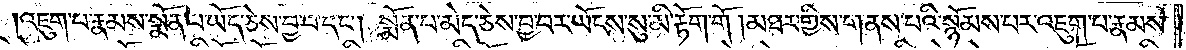འཇུག་པ་རྣམས་སྨོན་པ་ཡོད་ཅེས་བྱ་བ་དང༌། སྨོན་པ་མེད་ཅེས་བྱ་བར་ཡོངས་སུ་མི་རྟོག་གོ །མཐར་གྱིས་གནས་པའི་སྙོམས་པར་འཇུག་པ་རྣམས་
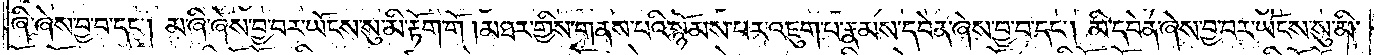ཞི་ཞེས་བྱ་བ་དང༌། མ་ཞི་ཞེས་བྱ་བར་ཡོངས་སུ་མི་རྟོག་གོ །མཐར་གྱིས་གནས་པའི་སྙོམས་པར་འཇུག་པ་རྣམས་དབེན་ཞེས་བྱ་བ་དང༌། མི་དབེན་ཞེས་བྱ་བར་ཡོངས་སུ་མི་
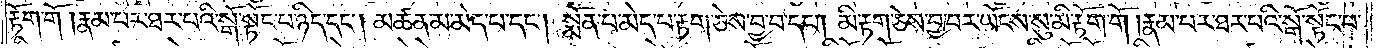རྟོག་གོ །རྣམ་པར་ཐར་པའི་སྒོ་སྟོང་པ་ཉིད་དང༌། མཚན་མ་མེད་པ་དང༌། སྨོན་པ་མེད་པ་རྟག་ཅེས་བྱ་བ་དང༌། མི་རྟག་ཅེས་བྱ་བར་ཡོངས་སུ་མི་རྟོག་གོ །རྣམ་པར་ཐར་པའི་སྒོ་སྟོང་པ་
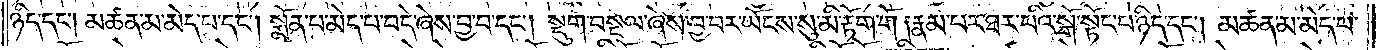ཉིད་དང༌། མཚན་མ་མེད་པ་དང༌། སྨོན་པ་མེད་པ་བདེ་ཞེས་བྱ་བ་དང༌། སྡུག་བསྔལ་ཞེས་བྱ་བར་ཡོངས་སུ་མི་རྟོག་གོ །རྣམ་པར་ཐར་པའི་སྒོ་སྟོང་པ་ཉིད་དང༌། མཚན་མ་མེད་པ་
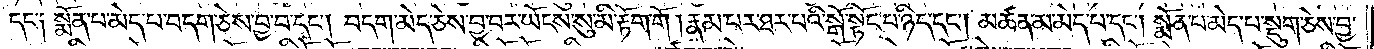དང༌། སྨོན་པ་མེད་པ་བདག་ཅེས་བྱ་བ་དང༌། བདག་མེད་ཅེས་བྱ་བར་ཡོངས་སུ་མི་རྟོག་གོ །རྣམ་པར་ཐར་པའི་སྒོ་སྟོང་པ་ཉིད་དང༌། མཚན་མ་མེད་པ་དང༌། སྨོན་པ་མེད་པ་སྡུག་ཅེས་བྱ་
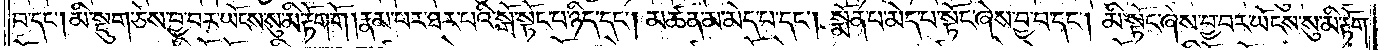བ་དང༌། མི་སྡུག་ཅེས་བྱ་བར་ཡོངས་སུ་མི་རྟོག་གོ །རྣམ་པར་ཐར་པའི་སྒོ་སྟོང་པ་ཉིད་དང༌། མཚན་མ་མེད་པ་དང༌། སྨོན་པ་མེད་པ་སྟོང་ཞེས་བྱ་བ་དང༌། མི་སྟོང་ཞེས་བྱ་བར་ཡོངས་སུ་མི་རྟོག་
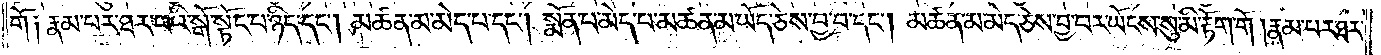གོ །རྣམ་པར་ཐར་པའི་སྒོ་སྟོང་པ་ཉིད་དང༌། མཚན་མ་མེད་པ་དང༌། སྨོན་པ་མེད་པ་མཚན་མ་ཡོད་ཅེས་བྱ་བ་དང༌། མཚན་མ་མེད་ཅེས་བྱ་བར་ཡོངས་སུ་མི་རྟོག་གོ །རྣམ་པར་ཐར་
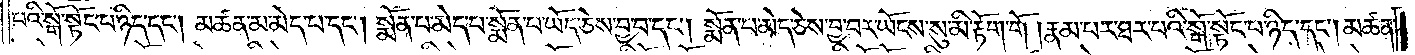པའི་སྒོ་སྟོང་པ་ཉིད་དང༌། མཚན་མ་མེད་པ་དང༌། སྨོན་པ་མེད་པ་སྨོན་པ་ཡོད་ཅེས་བྱ་བ་དང༌། སྨོན་པ་མེད་ཅེས་བྱ་བར་ཡོངས་སུ་མི་རྟོག་གོ །རྣམ་པར་ཐར་པའི་སྒོ་སྟོང་པ་ཉིད་དང༌། མཚན་
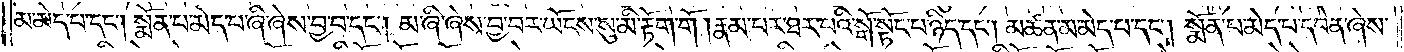མ་མེད་པ་དང༌། སྨོན་པ་མེད་པ་ཞི་ཞེས་བྱ་བ་དང༌། མ་ཞི་ཞེས་བྱ་བར་ཡོངས་སུ་མི་རྟོག་གོ །རྣམ་པར་ཐར་པའི་སྒོ་སྟོང་པ་ཉིད་དང༌། མཚན་མ་མེད་པ་དང༌། སྨོན་པ་མེད་པ་དབེན་ཞེས་
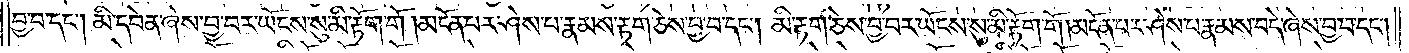བྱ་བ་དང༌། མི་དབེན་ཞེས་བྱ་བར་ཡོངས་སུ་མི་རྟོག་གོ །མངོན་པར་ཤེས་པ་རྣམས་རྟག་ཅེས་བྱ་བ་དང༌། མི་རྟག་ཅེས་བྱ་བར་ཡོངས་སུ་མི་རྟོག་གོ །མངོན་པར་ཤེས་པ་རྣམས་བདེ་ཞེས་བྱ་བ་དང༌།
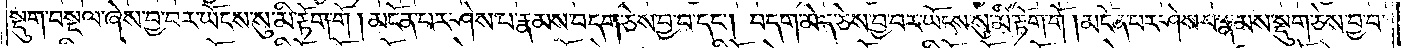སྡུག་བསྔལ་ཞེས་བྱ་བར་ཡོངས་སུ་མི་རྟོག་གོ །མངོན་པར་ཤེས་པ་རྣམས་བདག་ཅེས་བྱ་བ་དང༌། བདག་མེད་ཅེས་བྱ་བར་ཡོངས་སུ་མི་རྟོག་གོ །མངོན་པར་ཤེས་པ་རྣམས་སྡུག་ཅེས་བྱ་བ་
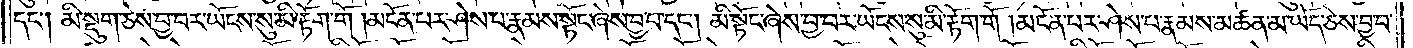དང༌། མི་སྡུག་ཅེས་བྱ་བར་ཡོངས་སུ་མི་རྟོག་གོ །མངོན་པར་ཤེས་པ་རྣམས་སྟོང་ཞེས་བྱ་བ་དང༌། མི་སྟོང་ཞེས་བྱ་བར་ཡོངས་སུ་མི་རྟོག་གོ །མངོན་པར་ཤེས་པ་རྣམས་མཚན་མ་ཡོད་ཅེས་བྱ་བ་
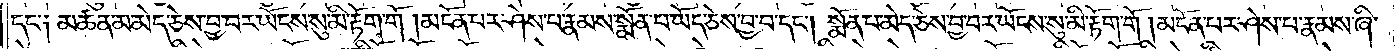དང༌༑ མཚན་མ་མེད་ཅེས་བྱ་བར་ཡོངས་སུ་མི་རྟོག་གོ །མངོན་པར་ཤེས་པ་རྣམས་སྨོན་པ་ཡོད་ཅེས་བྱ་བ་དང༌། སྨོན་པ་མེད་ཅེས་བྱ་བར་ཡོངས་སུ་མི་རྟོག་གོ །མངོན་པར་ཤེས་པ་རྣམས་ཞི་
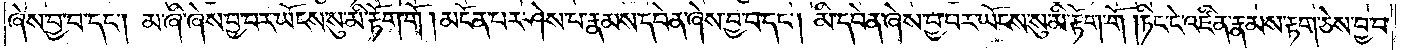ཞེས་བྱ་བ་དང༌། མ་ཞི་ཞེས་བྱ་བར་ཡོངས་སུ་མི་རྟོག་གོ །མངོན་པར་ཤེས་པ་རྣམས་དབེན་ཞེས་བྱ་བ་དང༌། མི་དབེན་ཞེས་བྱ་བར་ཡོངས་སུ་མི་རྟོག་གོ །ཏིང་ངེ་འཛིན་རྣམས་རྟག་ཅེས་བྱ་བ་
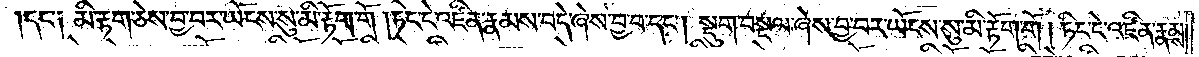དང་༑ མི་རྟག་ཅེས་བྱ་བར་ཡོངས་སུ་མི་རྟོག་གོ །ཏིང་ངེ་འཛིན་རྣམས་བདེ་ཞེས་བྱ་བ་དང༌། སྡུག་བསྔལ་ཞེས་བྱ་བར་ཡོངས་སུ་མི་རྟོག་གོ །ཏིང་ངེ་འཛིན་རྣམས་
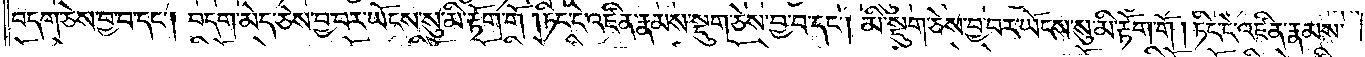བདག་ཅེས་བྱ་བ་དང༌། བདག་མེད་ཅེས་བྱ་བར་ཡོངས་སུ་མི་རྟོག་གོ །ཏིང་ངེ་འཛིན་རྣམས་སྡུག་ཅེས་བྱ་བ་དང༌། མི་སྡུག་ཅེས་བྱ་བར་ཡོངས་སུ་མི་རྟོག་གོ །ཏིང་ངེ་འཛིན་རྣམས་
